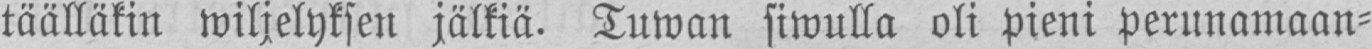täälläkin wiljelyksen jälkiä. Tuwan siwulla oli pieni perunamaan-
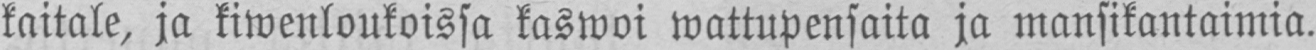kaitale, ja kiwenloukoissa kaswoi wattupensaita ja mansikantaimia.
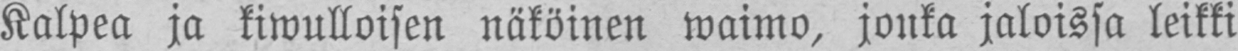Kalpea ja kiwulloisen näköinen waimo, jonka jaloissa leikki
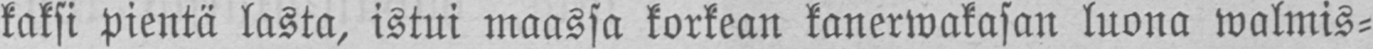kaksi pientä lasta, istui maassa korkean kanerwakasan luona walmis-
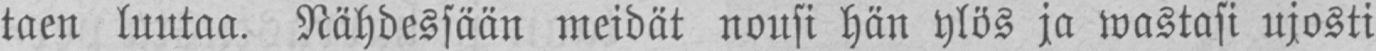taen luutaa. Nähdessään meidät nousi hän ylös ja wastasi ujosti
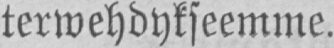terwehdykseemme.
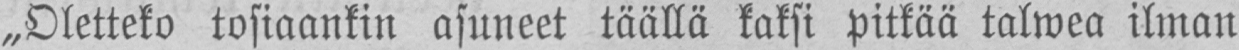„Oletteko tosiaankin asuneet täällä kaksi pitkää talwea ilman
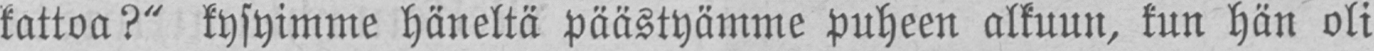kattoa?" kysyimme häneltä päästyämme puheen alkuun, kun hän oli
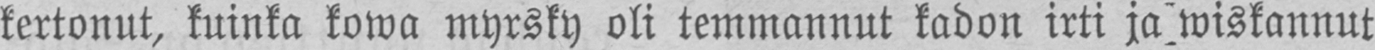kertonut, kuinka kowa myrsky oli temmannut kadon irti ja wiskannut
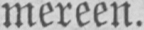mereen.
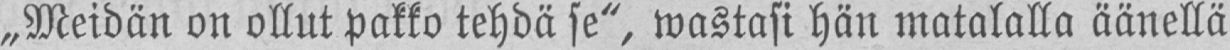„Meidän on ollut pakko tehdä se", wastasi hän matalalla äänellä
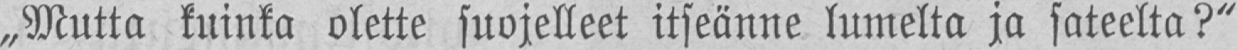„Mutta kuinka olette suojelleet itseänne lumelta ja sateelta?"
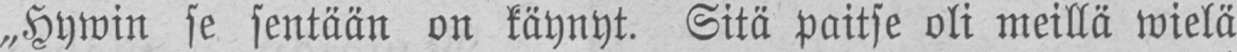„Hywin se sentään on käynyt. Sitä paitse oli meillä wielä
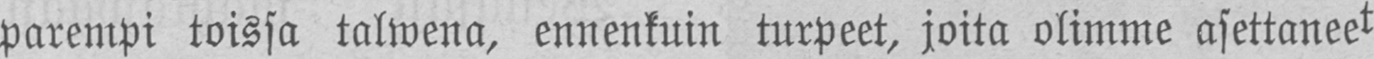parempi toissa talwena, ennenkuin turpeet, joita olimme asettaneet
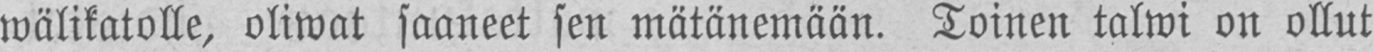wälikatolle, oliwat saaneet sen mätänemään. Toinen talwi on ollut
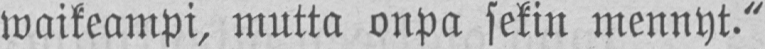waikeampi, mutta onpa sekin mennyt."
